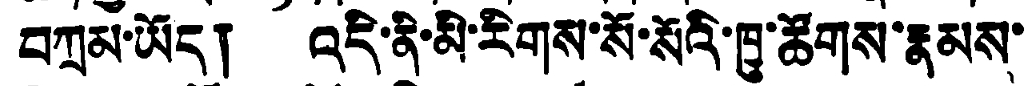བཀྲམ་ཡོད། འདི་ནི་མི་རིགས་སོ་སོའི་ཁྱུ་ཚོགས་རྣམས་
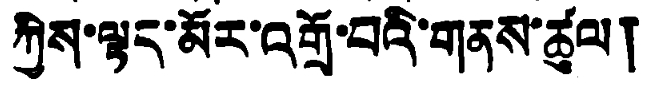ཀྱིས་ལྟད་མོར་འགྲོ་བའི་གནས་ཚུལ།
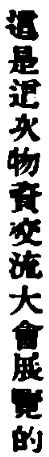這是這次物資交流大會展覽的
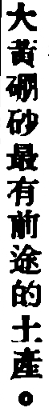大黃硼砂最有前途的土產。
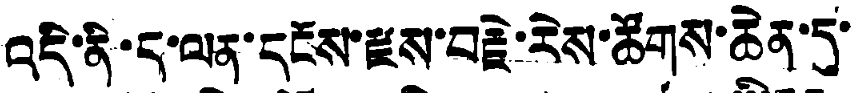འདི་ནི་ད་ལན་དངོས་རྫས་བརྗེ་རེས་ཚོགས་ཆེན་དུ་
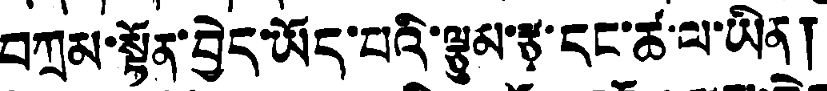བཀྲམ་སྟོན་བྱེད་ཡོད་པའི་ལྕུམ་རྩྭ་དང་ཚ་ལ་ཡིན།
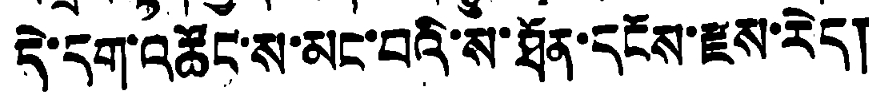དེ་དག་འཚོང་ས་མང་བའི་ས་ཐོན་དངོས་རྫས་རེད།
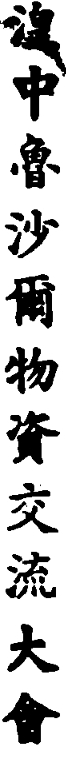湟中魯沙爾物資交流大會
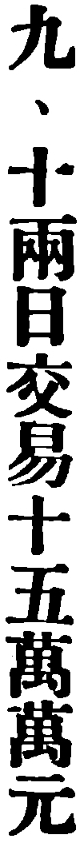九、十兩日交易十五萬萬元
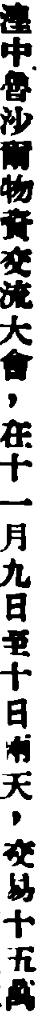湟中魯沙爾物資交流大會，在十一月九日至十日兩天，交易十五萬
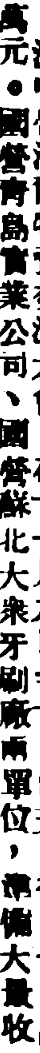萬元。國營靑島實業公司、國營蘇北大衆牙刷廠兩單位，準備大量收
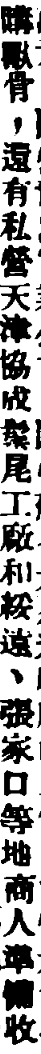購獸骨，還有私營天津協成鬃尾工廠和綏遠、張家口等地商人準備收
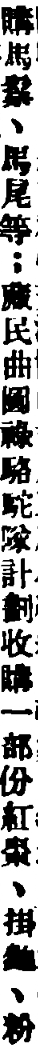購馬鬃、馬尾等；藏民曲圖祿駱駝隊計劃收購一部分紅棗、掛麵、粉
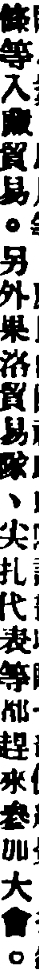條等入藏貿易。另外果洛貿易隊、尖扎代表等都趕來參加大會。
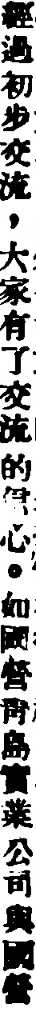經過初步交流、大家有了交流的信心。如國營靑島實業公司與國營
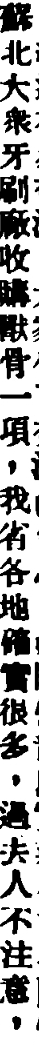蘇北大衆牙刷廠收購獸骨一項，我省各地礦寶很多，過去人不注意，
